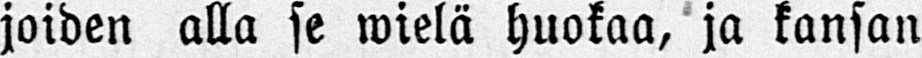joiden alla se wielä huokaa, ja kansan
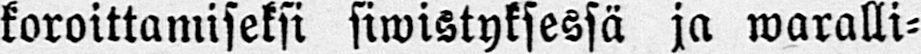koroittamiseksi siwistyksessä ja waralli-
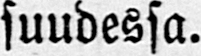suudessa.
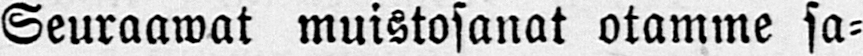Seuraawat muistosanat otamme sa-
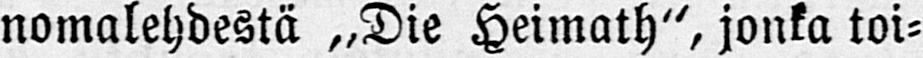nomalehdestä „Die Heimath", jonka toi-
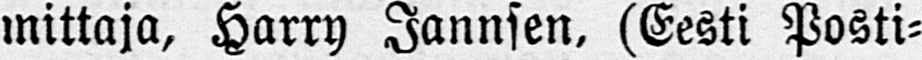mittaja, Harry Jannsen. (Eesti Posti-
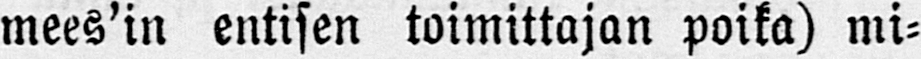mees'in entisen toimittajan poika) mi-
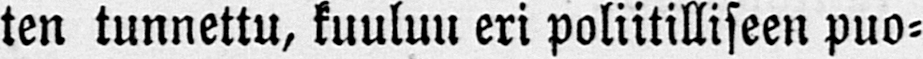ten tunnettu, kuuluu eri poliitilliseen puo-
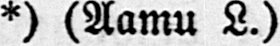*) (Aamu L.)
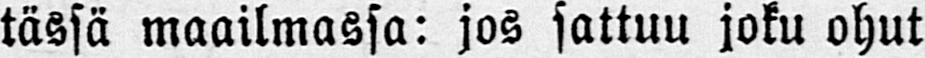tässä maailmassa: jos sattuu joku ohut
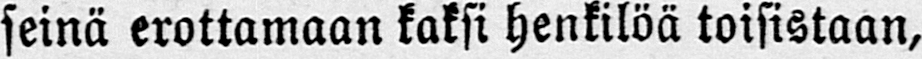seinä erottamaan kaksi henkilöä toisistaan,
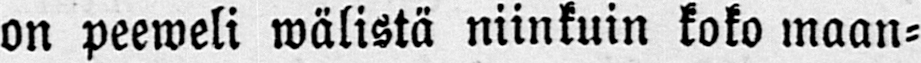on peeweli wälistä niinkuin koko maan-
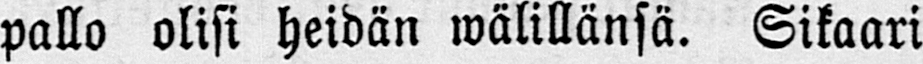pallo olisi heidän wälillänsä. Sikaari
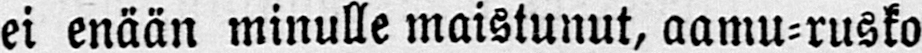ei enään minulle maistunut, aamu-rusko
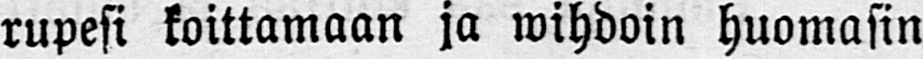rupesi koittamaan ja wihdoin huomasin
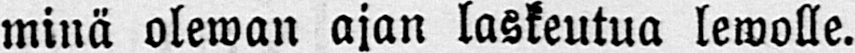minä olewan ajan laskeutua lewolle.
